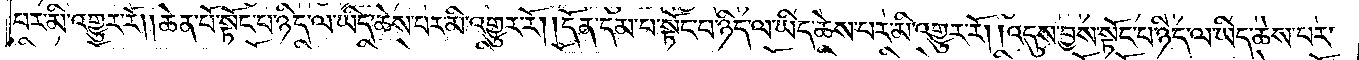པར་མི་འགྱུར་རོ། །ཆེན་པོ་སྟོང་པ་ཉིད་ལ་ཡིད་ཆེས་པར་མི་འགྱུར་རོ། །དོན་དམ་པ་སྟོང་པ་ཉིད་ལ་ཡིད་ཆེས་པར་མི་འགྱུར་རོ། །འདུས་བྱས་སྟོང་པ་ཉིད་ལ་ཡིད་ཆེས་པར་
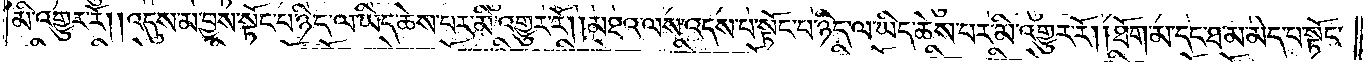མི་འགྱུར་རོ། །འདུས་མ་བྱས་སྟོང་པ་ཉིད་ལ་ཡིད་ཆེས་པར་མི་འགྱུར་རོ། །མཐའ་ལས་འདས་པ་སྟོང་པ་ཉིད་ལ་ཡིད་ཆེས་པར་མི་འགྱུར་རོ། །ཐོག་མ་དང་ཐ་མ་མེད་པ་སྟོང་
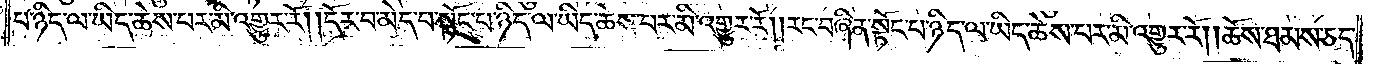པ་ཉིད་ལ་ཡིད་ཆེས་པར་མི་འགྱུར་རོ། །དོར་བ་མེད་པ་སྟོང་པ་ཉིད་ལ་ཡིད་ཆེས་པར་མི་འགྱུར་རོ། །རང་བཞིན་སྟོང་པ་ཉིད་ལ་ཡིད་ཆེས་པར་མི་འགྱུར་རོ། །ཆོས་ཐམས་ཅད་
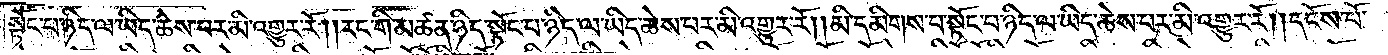སྟོང་པ་ཉིད་ལ་ཡིད་ཆེས་པར་མི་འགྱུར་རོ། །རང་གི་མཚན་ཉིད་སྟོང་པ་ཉིད་ལ་ཡིད་ཆེས་པར་མི་འགྱུར་རོ། །མི་དམིགས་པ་སྟོང་པ་ཉིད་ལ་ཡིད་ཆེས་པར་མི་འགྱུར་རོ། །དངོས་པོ་
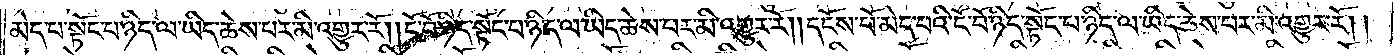མེད་པ་སྟོང་པ་ཉིད་ལ་ཡིད་ཆེས་པར་མི་འགྱུར་རོ། །ངོ་བོ་ཉིད་སྟོང་པ་ཉིད་ལ་ཡིད་ཆེས་པར་མི་འགྱུར་རོ། །དངོས་པོ་མེད་པའི་ངོ་བོ་ཉིད་སྟོང་པ་ཉིད་ལ་ཡིད་ཆེས་པར་མི་འགྱུར་རོ། །
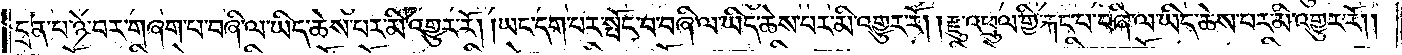དྲན་པ་ཉེ་བར་གཞག་པ་བཞི་ལ་ཡིད་ཆེས་པར་མི་འགྱུར་རོ། །ཡང་དག་པར་སྤོང་བ་བཞི་ལ་ཡིད་ཆེས་པར་མི་འགྱུར་རོ། །རྫུ་འཕྲུལ་གྱི་རྐང་པ་བཞི་ལ་ཡིད་ཆེས་པར་མི་འགྱུར་རོ། །
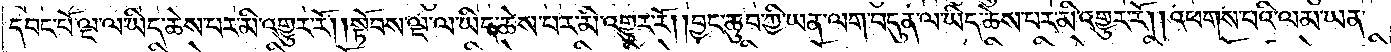དབང་པོ་ལྔ་ལ་ཡིད་ཆེས་པར་མི་འགྱུར་རོ། །སྟོབས་ལྔ་ལ་ཡིད་ཆེས་པར་མི་འགྱུར་རོ། །བྱང་ཆུབ་ཀྱི་ཡན་ལག་བདུན་ལ་ཡིད་ཆེས་པར་མི་འགྱུར་རོ། །འཕགས་པའི་ལམ་ཡན་
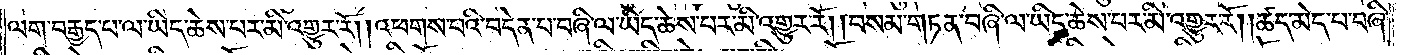ལག་བརྒྱད་པ་ལ་ཡིད་ཆེས་པར་མི་འགྱུར་རོ། །འཕགས་པའི་བདེན་པ་བཞི་ལ་ཡིད་ཆེས་པར་མི་འགྱུར་རོ། །བསམ་གཏན་བཞི་ལ་ཡིད་ཆེས་པར་མི་འགྱུར་རོ། །ཚད་མེད་པ་བཞི་
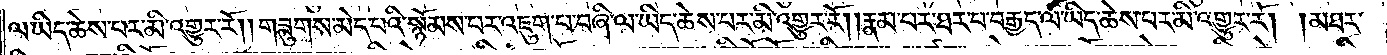ལ་ཡིད་ཆེས་པར་མི་འགྱུར་རོ། །གཟུགས་མེད་པའི་སྙོམས་པར་འཇུག་པ་བཞི་ལ་ཡིད་ཆེས་པར་མི་འགྱུར་རོ། །རྣམ་པར་ཐར་བ་བརྒྱད་ལ་ཡིད་ཆེས་པར་མི་འགྱུར་རོ། །མཐར་
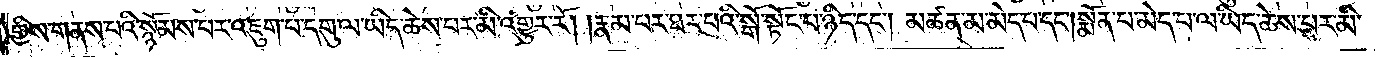གྱིས་གནས་པའི་སྙོམས་པར་འཇུག་པ་དགུ་ལ་ཡིད་ཆེས་པར་མི་འགྱུར་རོ། །རྣམ་པར་ཐར་པའི་སྒོ་སྟོང་པ་ཉིད་དང༌། མཚན་མ་མེད་པ་དང༌། སྨོན་པ་མེད་པ་ལ་ཡིད་ཆེས་པར་མི་
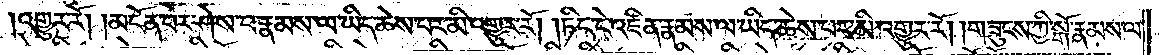འགྱུར་རོ། །མངོན་པར་ཤེས་པ་རྣམས་ལ་ཡིད་ཆེས་པར་མི་འགྱུར་རོ། །ཏིང་ངེ་འཛིན་རྣམས་ལ་ཡིད་ཆེས་པར་མི་འགྱུར་རོ། །གཟུངས་ཀྱི་སྒོ་རྣམས་ལ་
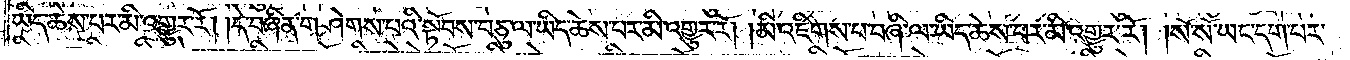ཡིད་ཆེས་པར་མི་འགྱུར་རོ། །དེ་བཞིན་གཤེགས་པའི་སྟོབས་བཅུ་ལ་ཡིད་ཆེས་པར་མི་འགྱུར་རོ། །མི་འཇིགས་པ་བཞི་ལ་ཡིད་ཆེས་པར་མི་འགྱུར་རོ། །སོ་སོ་ཡང་དག་པར་
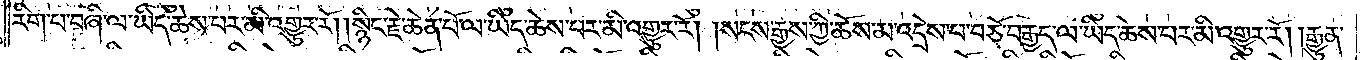རིག་པ་བཞི་ལ་ཡིད་ཆེས་པར་མི་འགྱུར་རོ། །སྙིང་རྗེ་ཆེན་པོ་ལ་ཡིད་ཆེས་པར་མི་འགྱུར་རོ། །སངས་རྒྱས་ཀྱི་ཆོས་མ་འདྲེས་པ་བཅོ་བརྒྱད་ལ་ཡིད་ཆེས་པར་མི་འགྱུར་རོ། །རྒྱུན་
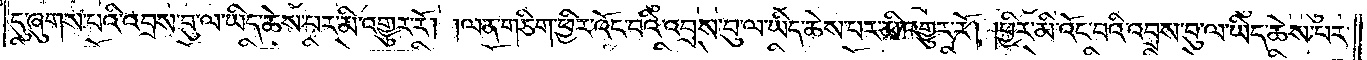དུ་ཞུགས་པའི་འབྲས་བུ་ལ་ཡིད་ཆེས་པར་མི་འགྱུར་རོ། །ལན་གཅིག་ཕྱིར་འོང་བའི་འབྲས་བུ་ལ་ཡིད་ཆེས་པར་མི་འགྱུར་རོ། །ཕྱིར་མི་འོང་བའི་འབྲས་བུ་ལ་ཡིད་ཆེས་པར་
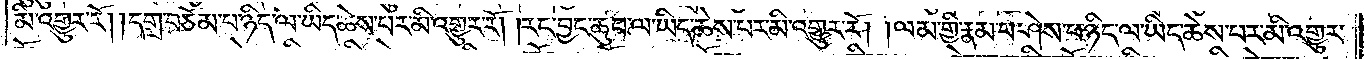མི་འགྱུར་རོ། །དགྲ་བཅོམ་པ་ཉིད་ལ་ཡིད་ཆེས་པར་མི་འགྱུར་རོ། །རང་བྱང་ཆུབ་ལ་ཡིད་ཆེས་པར་མི་འགྱུར་རོ། །ལམ་གྱི་རྣམ་པ་ཤེས་པ་ཉིད་ལ་ཡིད་ཆེས་པར་མི་འགྱུར་
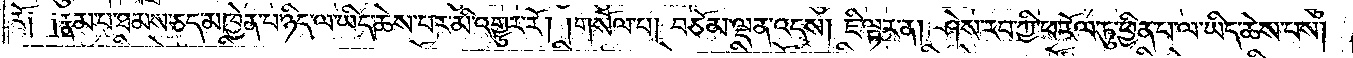རོ༑ ༑རྣམ་པ་ཐམས་ཅད་མཁྱེན་པ་ཉིད་ལ་ཡིད་ཆེས་པར་མི་འགྱུར་རོ། །གསོལ་པ། བཅོམ་ལྡན་འདས། ཇི་ལྟར་ན། ཤེས་རབ་ཀྱི་ཕ་རོལ་ཏུ་ཕྱིན་པ་ལ་ཡིད་ཆེས་པས།
